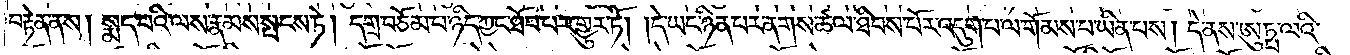བརྟེན་ནས། སྨད་པའི་ལས་རྣམས་སྤངས་ཏེ། དགྲ་བཅོམ་པ་ཉིད་ཀྱང་ཐོབ་པར་གྱུར་ཏོ། །དེ་ཡང་ཉིན་པར་ནགས་ཚལ་ཐིབས་པོར་འདུག་པ་ལ་གོམས་པ་ཡིན་པས། དེ་ནས་ཨུཏྤ་ལའི་
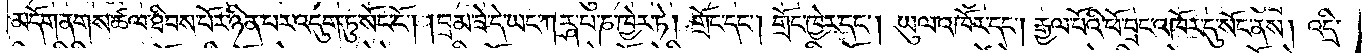མདོག་ནགས་ཚལ་ཐིབས་པོར་ཉིན་པར་འདུག་ཏུ་སོང་ངོ༌། །བྲམ་ཟེ་དེ་ཡང་ཀཪྴ་པ་ཎ་ཁྱེར་ཏེ། གྲོང་དང༌། གྲོང་ཁྱེར་དང༌། ཡུལ་འཁོར་དང༌། རྒྱལ་པོའི་ཕོ་བྲང་འཁོར་དུ་སོང་ནས། འདྲི་
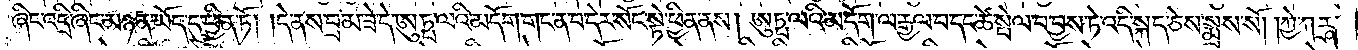ཞིང་འདྲི་ཞིང་མཉན་ཡོད་དུ་ཕྱིན་ཏོ། །དེ་ནས་བྲམ་ཟེ་དེ་ཨུཏྤ་ལའི་མདོག་གང་ན་བ་དེར་སོང་སྟེ་ཕྱིན་ནས། ཨུཏྤ་ལའི་མདོག་ལ་རྒྱལ་བ་དང་ཚེ་སྤེལ་བ་བྱས་ཏེ་འདི་སྐད་ཅེས་སྨྲས་སོ། །ཀྱེ་ཀཪྴ་
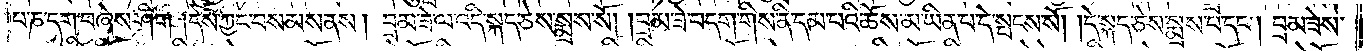པ་ཎ་དག་བཞེས་ཤིག །དེས་ཀྱང་བསམས་ནས། བྲམ་ཟེ་ལ་འདི་སྐད་ཅེས་སྨྲས་སོ། །བྲམ་ཟེ་བདག་གིས་ནི་དམ་པའི་ཆོས་མ་ཡིན་པ་དེ་སྤངས་སོ། །དེ་སྐད་ཅེས་སྨྲས་པ་དང༌། བྲམ་ཟེས་
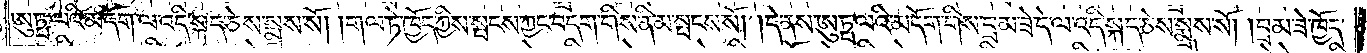ཨུཏྤ་ལའི་མདོག་ལ་འདི་སྐད་ཅེས་སྨྲས་སོ། །གལ་ཏེ་ཁྱོད་ཀྱིས་སྤངས་ཀྱང་བདག་གིས་ནི་མ་སྤངས་སོ། །དེ་ནས་ཨུཏྤ་ལའི་མདོག་གིས་བྲམ་ཟེ་དེ་ལ་འདི་སྐད་ཅེས་སྨྲས་སོ། །བྲམ་ཟེ་ཁྱོད་
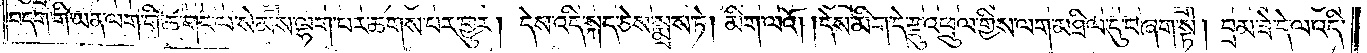བདག་གི་ཡན་ལག་གི་ཆ་གང་ལ་སེམས་ལྷག་པར་ཆགས་པར་གྱུར། དེས་འདི་སྐད་ཅེས་སྨྲས་ཏེ། མིག་ལའོ། །དེས་མིག་དེ་རྫུ་འཕྲུལ་གྱིས་ལག་མཐིལ་དུ་བཞག་སྟེ། བྲམ་ཟེ་དེ་ལ་འདི་
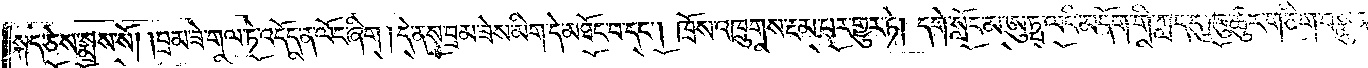སྐད་ཅེས་སྨྲས་སོ། །བྲམ་ཟེ་གལ་ཏེ་འདོད་ན་ལོང་ཞིག །དེ་ནས་བྲམ་ཟེས་མིག་དེ་མཐོང་བ་དང༌། ཁྲོས་འཁྲུགས་རྔམ་པར་གྱུར་ཏེ། དེ་སློང་མ་ཨུཏྤ་ལའི་མདོག་གི་ཀླད་དུ་ཁུ་ཚུར་གཅིག་བསྣུན་
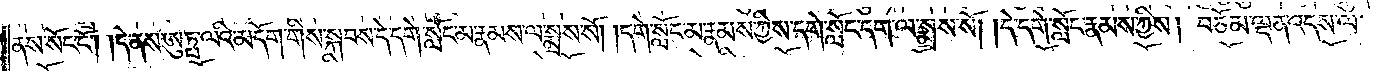ནས་སོང་ངོ༌། །དེ་ནས་ཨུཏྤ་ལའི་མདོག་གིས་སྐབས་དེ་དགེ་སློང་མ་རྣམས་ལ་སྨྲས་སོ། །དགེ་སློང་མ་རྣམས་ཀྱིས་དགེ་སློང་དག་ལ་སྨྲས་སོ། །དེ་དགེ་སློང་རྣམས་ཀྱིས། བཅོམ་ལྡན་འདས་ལ་
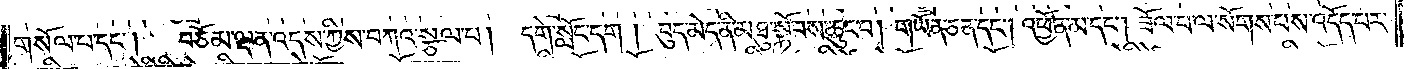གསོལ་པ་དང༌། བཅོམ་ལྡན་འདས་ཀྱིས་བཀའ་སྩལ་པ། དགེ་སློང་དག །བུད་མེད་ནི་མཐུ་སྟོབས་ཆུང་བ། གཡོན་ཅན་དང༌། འཕྱོན་མ་དང༌། ཟོལ་བ་ལ་སོགས་པས་འདོད་པར་
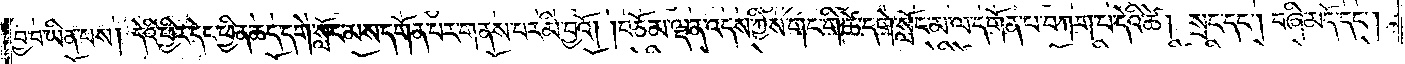བྱ་བ་ཡིན་པས། དེའི་ཕྱིར་དེང་ཕྱིན་ཆད་དགེ་སློང་མས་དགོན་པར་གནས་པར་མི་བྱའོ། །བཅོམ་ལྡན་འདས་ཀྱིས་གང་གི་ཚེ་དགེ་སློང་མ་ལ་དགོན་པ་བཀག་པ་དེའི་ཚེ། སྲང་དང༌། བཞི་མདོ་དང༌།
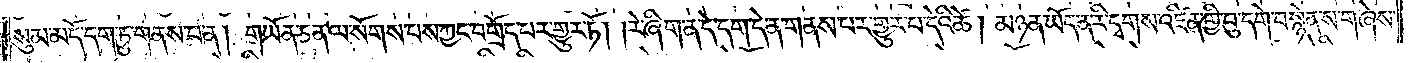སུམ་མདོ་དག་ཏུ་གནས་པ་ན། གཡོན་ཅན་ལ་སོགས་པས་ཀྱང་བགྲོད་པར་གྱུར་ཏོ། །རེ་ཞིག་ན་དེ་དག་དེ་ན་གནས་པར་གྱུར་པ་དེའི་ཚེ། མཉན་ཡོད་ན་རི་དྭགས་འཛིན་གྱི་བུ་དགེ་བསྙེན་ས་ག་ཞེས་
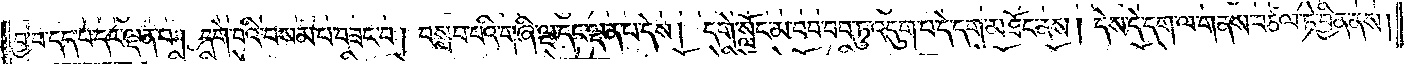བྱ་བ་དད་པ་དང་ལྡན་པ། དགེ་བའི་བསམ་པ་བཟང་བ། བསླབ་པའི་གཞི་ལྔ་དང་ལྡན་པ་དེས། དགེ་སློང་མ་བབ་བབ་ཏུ་འདུག་པ་དེ་དག་མཐོང་ནས། དེས་དེ་དག་ལ་གནས་བཙལ་ཏེ་བྱིན་ནས།
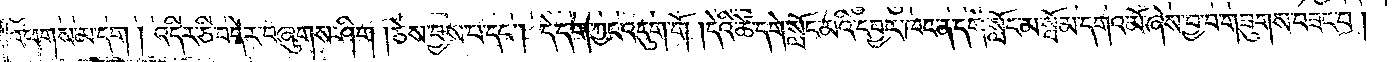འཕགས་མ་དག །འདིར་ཅི་བདེར་བཞུགས་ཤིག །ཅེས་བྱས་པ་དང༌། དེ་དག་ཀྱང་འདུག་གོ །དེའི་ཚེ་དགེ་སློང་མའི་དབྱར་ཁང་ན་དགེ་སློང་མ་སྦོམ་དགའ་མོ་ཞེས་བྱ་བ་གཟུགས་བཟང་བ །
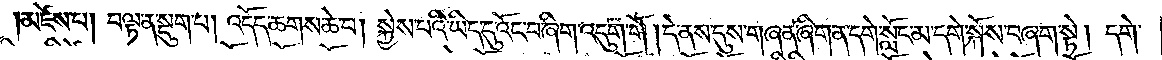མཛེས་པ། བལྟ་ན་སྡུག་པ། འདོད་ཆགས་ཆེ་བ། སྐྱེས་པའི་ཡིད་དུ་འོང་བ་ཞིག་འདུག་གོ །དེ་ནས་དུས་གཞན་ཞིག་ན་དགེ་སློང་མ་དགེ་སྐོས་བཞག་སྟེ། དགེ་
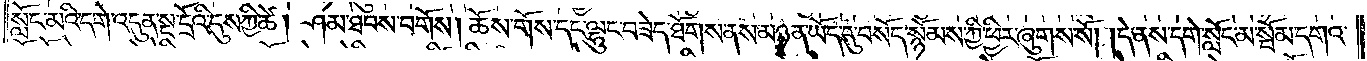སློང་མའི་དགེ་འདུན་སྔ་དྲོའི་དུས་ཀྱི་ཚེ། ཤམ་ཐབས་བགོས། ཆོས་གོས་དང་ལྷུང་བཟེད་ཐོགས་ནས་མཉན་ཡོད་དུ་བསོད་སྙོམས་ཀྱི་ཕྱིར་ཞུགས་སོ། །དེ་ནས་དགེ་སློང་སྦོམ་དགའ་
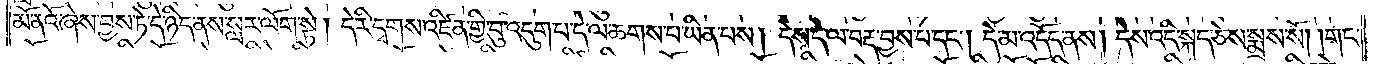མོ་ནའོ་ཞེས་བྱས་ཏེ་དེ་ཉིད་ནས་སླར་ལོག་སྟེ། དེ་རི་དྭགས་འཛིན་གྱི་བུ་འདུག་པ་དེ་ལ་ཆགས་པ་ཡིན་པས། དེས་དེ་ལ་བརྡ་བྱས་པ་དང༌། དེ་མ་འདོད་ནས། དེས་འདི་སྐད་ཅེས་སྨྲས་སོ། །གང་
